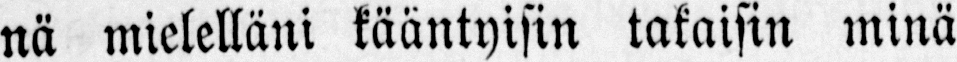nä mielelläni kääntyisin takaisin minä
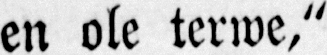en ole terwe,"
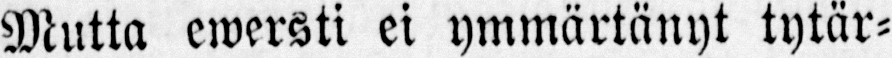Mutta ewersti ei ymmärtänyt tytär-
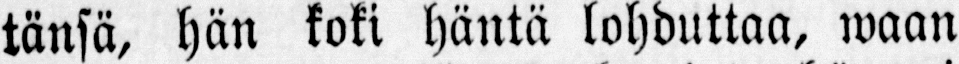tänsä, hän koki häntä lohduttaa, waan
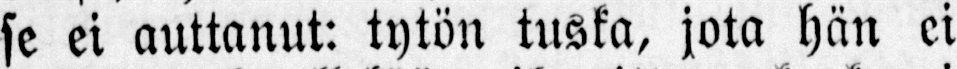se ei auttanut: tytön tuska, jota hän ei
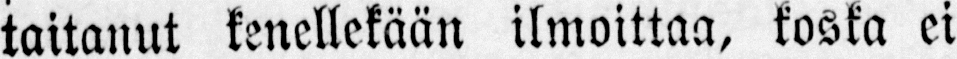taitanut kenellekään ilmoittaa, koska ei
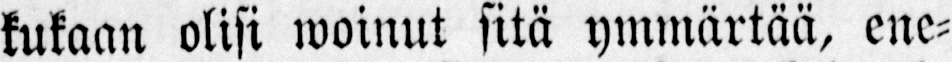kukaan olisi woinut sitä ymmärtää, ene-
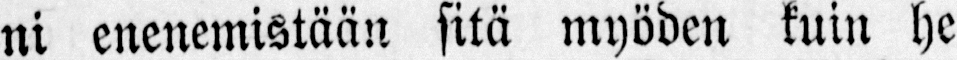ni enenemistään sitä myöden kuin he
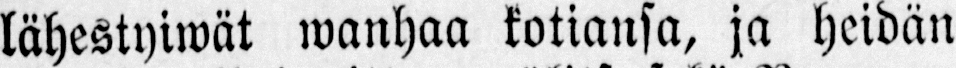lähestyiwät wanhaa kotiansa, ja heidän
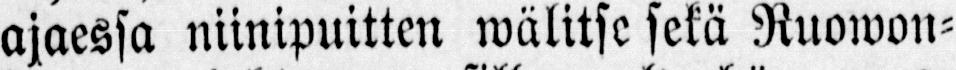ajaessa niinipuitten wälitse sekä Ruowon-
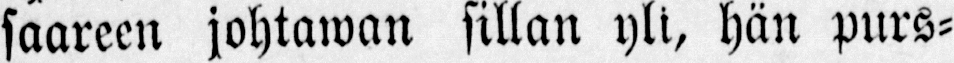saareen johtawan sillan yli, hän purs-
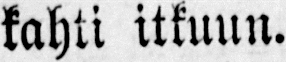kahti itkuun.
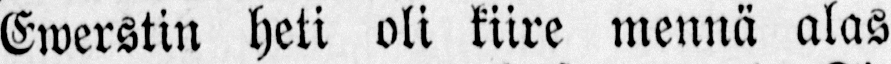Ewerstin heti oli kiire mennä alas
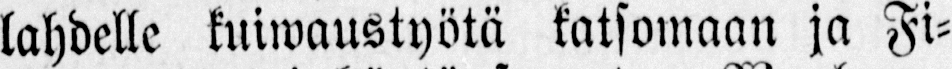lahdelle kuiwaustyötä katsomaan ja Fi-
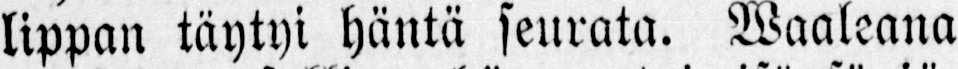lippan täytyi häntä seurata. Waaleana
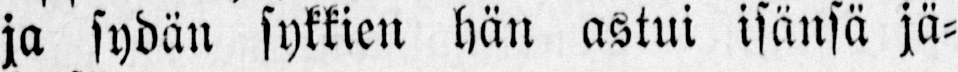ja sydän sykkien hän astui isänsä jä-
